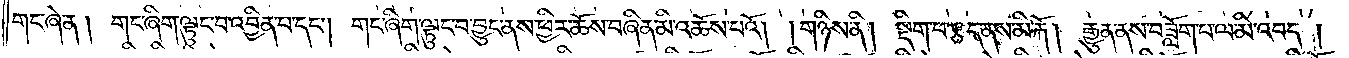གང་ཞེ་ན། གང་ཞིག་ལྟུང་བ་འབྱིན་པ་དང༌། གང་ཞིག་ལྟུང་བ་བྱུང་ནས་ཕྱིར་ཆོས་བཞིན་མི་འཆོས་པའོ། །གཉིས་ནི། སྡིག་པ་རྩད་ནས་མི་རྐོ། རྒྱུན་ནས་བཟློག་པ་ལ་མི་འབད།
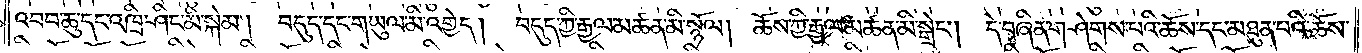འབབ་ཆུ་དང་འཁྲི་ཤིང་མི་སྐེམ། བདུད་དང་གཡུལ་མི་འགྱེད། བདུད་ཀྱི་རྒྱལ་མཚན་མི་སྙོལ། ཆོས་ཀྱི་རྒྱལ་མཚན་མི་སྒྲེང༌། དེ་བཞིན་གཤེགས་པའི་ཆོས་དང་མཐུན་པའི་ཆོས་
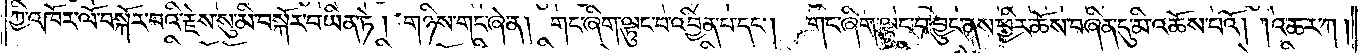ཀྱི་འཁོར་ལོ་བསྐོར་བའི་རྗེས་སུ་མི་བསྐོར་བ་ཡིན་ཏེ། གཉིས་གང་ཞེ་ན། གང་ཞིག་ལྟུང་བ་འབྱིན་པ་དང༌། གང་ཞིག་ལྟུང་བ་བྱུང་ནས་ཕྱིར་ཆོས་བཞིན་དུ་མི་འཆོས་པའོ། །འཆར་ཀ།
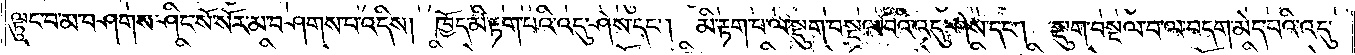ལྟུང་བ་མ་བཤགས་ཤིང་སོ་སོར་མ་བཤགས་པ་འདིས། ཁྱོད་མི་རྟག་པའི་འདུ་ཤེས་དང༌། མི་རྟག་པ་ལ་སྡུག་བསྔལ་བའི་འདུ་ཤེས་དང༌། སྡུག་བསྔལ་བ་ལ་བདག་མེད་པའི་འདུ་
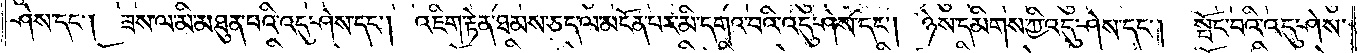ཤེས་དང༌། ཟས་ལ་མི་མཐུན་པའི་འདུ་ཤེས་དང༌། འཇིག་རྟེན་ཐམས་ཅད་ལ་མངོན་པར་མི་དགའ་བའི་འདུ་ཤེས་དང༌། ཉེས་དམིགས་ཀྱི་འདུ་ཤེས་དང༌། སྤོང་བའི་འདུ་ཤེས་
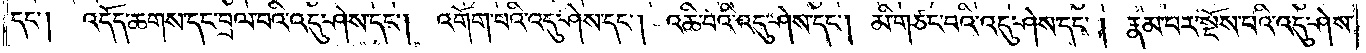དང༌། འདོད་ཆགས་དང་བྲལ་བའི་འདུ་ཤེས་དང༌། འགོག་པའི་འདུ་ཤེས་དང༌། འཆི་བའི་འདུ་ཤེས་དང༌། མི་གཙང་བའི་འདུ་ཤེས་དང༌། རྣམ་པར་སྔོས་པའི་འདུ་ཤེས་
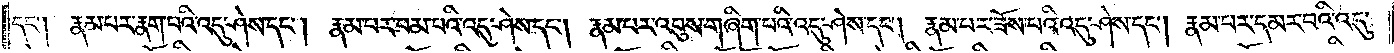དང༌། རྣམ་པར་རྣག་པའི་འདུ་ཤེས་དང༌། རྣམ་པར་བམ་པའི་འདུ་ཤེས་དང༌། རྣམ་པར་འབུས་གཞིག་པའི་འདུ་ཤེས་དང༌། རྣམ་པར་ཟོས་པའི་འདུ་ཤེས་དང༌། རྣམ་པར་དམར་བའི་འདུ་
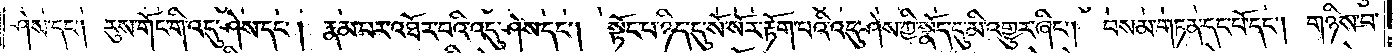ཤེས་དང༌། རུས་གོང་གི་འདུ་ཤེས་དང༌། རྣམ་པར་འཐོར་བའི་འདུ་ཤེས་དང༌། སྟོང་པ་ཉིད་དུ་སོ་སོར་རྟོག་པའི་འདུ་ཤེས་ཀྱི་སྣོད་དུ་མི་འགྱུར་ཞིང༌། བསམ་གཏན་དང་པོ་དང༌། གཉིས་པ་
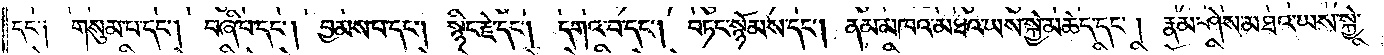དང༌། གསུམ་པ་དང༌། བཞི་པ་དང༌། བྱམས་པ་དང༌། སྙིང་རྗེ་དང༌། དགའ་བ་དང༌། བཏང་སྙོམས་དང༌། ནམ་མཁའ་མཐའ་ཡས་སྐྱེ་མཆེད་དང༌། རྣམ་ཤེས་མཐའ་ཡས་སྐྱེ་
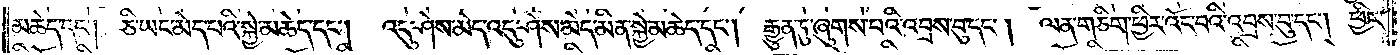མཆེད་དང༌། ཅི་ཡང་མེད་པའི་སྐྱེ་མཆེད་དང༌། འདུ་ཤེས་མེད་འདུ་ཤེས་མེད་མིན་སྐྱེ་མཆེད་དང༌། རྒྱུན་དུ་ཞུགས་པའི་འབྲས་བུ་དང༌། ལན་གཅིག་ཕྱིར་འོང་བའི་འབྲས་བུ་དང༌། ཕྱིར་
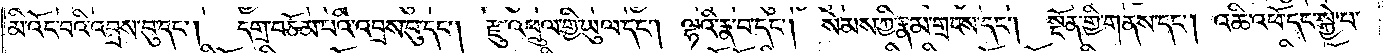མི་འོང་བའི་འབྲས་བུ་དང༌།   དགྲ་བཅོམ་པའི་འབྲས་བུ་དང༌། རྫུ་འཕྲུལ་གྱི་ཡུལ་དང༌། ལྷའི་རྣ་བ་དང༌། སེམས་ཀྱི་རྣམ་གྲངས་དང༌། སྔོན་གྱི་གནས་དང༌། འཆི་འཕོ་དང་སྐྱེ་བ་
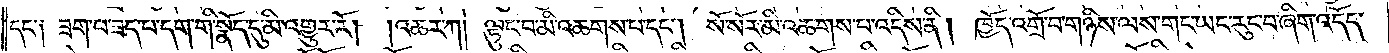དང༌། ཟག་པ་ཟད་པ་དག་གི་སྣོད་དུ་མི་འགྱུར་རོ། །འཆར་ཀ། ལྟུང་བ་མི་འཆགས་པ་དང༌། སོ་སོར་མི་འཆགས་པ་འདིས་ནི། ཁྱོད་འགྲོ་བ་གཉིས་ལས་གང་ཡང་རུང་བ་ཞིག་འདོད་
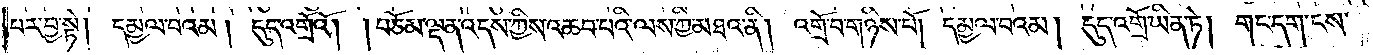པར་བྱ་སྟེ། དམྱལ་བའམ། དུད་འགྲོའོ། །བཅོམ་ལྡན་འདས་ཀྱིས་འཆབ་པའི་ལས་ཀྱི་མཐའ་ནི། འགྲོ་བ་གཉིས་པོ། དམྱལ་བའམ། དུད་འགྲོ་ཡིན་ཏེ། གང་དག་ངས་
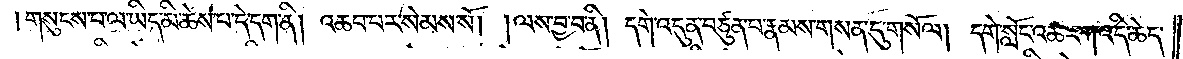།གསུངས་པ་ལ་ཡིད་མི་ཆེས་པ་དེ་དག་ནི། འཆབ་པར་སེམས་སོ། །ལས་བྱ་བ་ནི། དགེ་འདུན་བཙུན་པ་རྣམས་གསན་དུ་གསོལ། །དགེ་སློང་འཆར་ཀ་འདི་ཆེད་
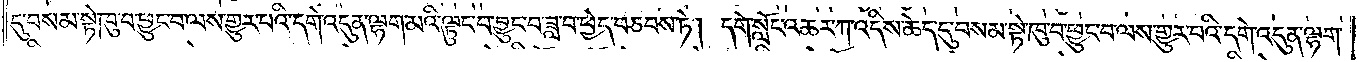དུ་བསམ་སྟེ་ཁུ་བ་ཕྱུང་བ་ལས་གྱུར་པའི་དགེ་འདུན་ལྷག་མའི་ལྟུང་བ་བྱུང་བ་ཟླ་བ་ཕྱེད་བཅབས་ཏེ། དགེ་སློང་འཆར་ཀ་འདིས་ཆེད་དུ་བསམ་སྟེ་ཁུ་བ་ཕྱུང་བ་ལས་གྱུར་པའི་དགེ་འདུན་ལྷག་
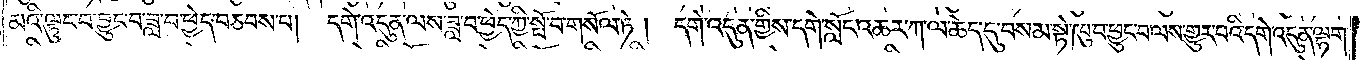མའི་ལྟུང་བ་ང་བྱུང་བ་ཟླ་བ་ཕྱེད་བཅབས་པ། དགེ་འདུན་ལས་ཟླ་བ་ཕྱེད་ཀྱི་སྤོ་བ་གསོལ་ཏེ། དགེ་འདུན་གྱིས་དགེ་སློང་འཆར་ཀ་ལ་ཆེད་དུ་བསམ་སྟེ་ཁུ་བ་ཕྱུང་བ་ལས་གྱུར་པའི་དགེ་འདུན་ལྷག་
